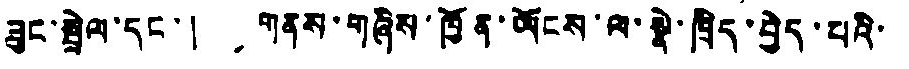ཟུང་སྤྲེལ་དང་། གནས་གཞིས་ཁྱོན་ཡོངས་ལ་སྣེ་ཁྲིད་བྱེད་པའི་
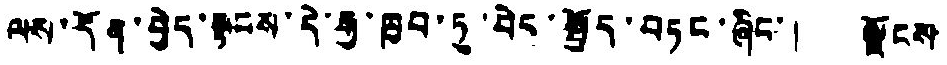ལས་དོན་བྱེད་སྟབས་དེ་རྒྱ་ཁྱབ་ཏུ་བེད་སྤྱོད་བཏང་ཞིང་། ལྗོངས
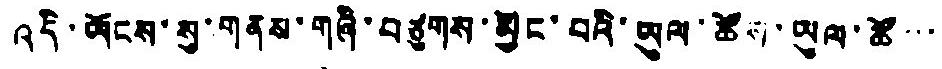འདི་ཡོངས་སུ་གནས་གཞི་བཙུགས་མྱོང་བའི་ཡུལ་ཚོས་ཡུལ་ཚོ་་་
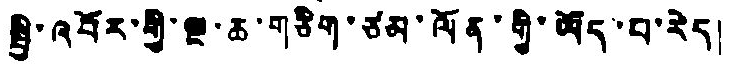སྤྱི་འབོར་གྱི་སྔ་ཆ་གཅིག་ཙམ་ལོན་གྱི་ཡོད་པ་རེད།
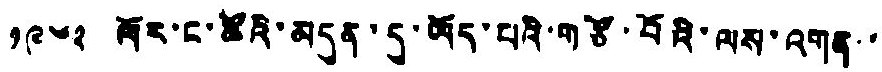༡༩༦༢ ཁོར་ང་ཚོའི་མདུན་དུ་ཡོད་པའི་གཙོ་བོའི་ལས་འགན་་
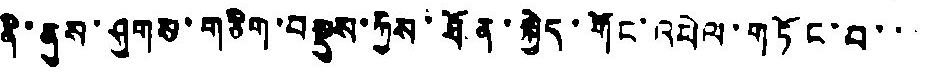ནི་ནུས་ཤུགས་གཅིག་བསྡུས་ཀྱིས་ཐོན་སྐྱེད་གོང་འཕེལ་གཏོང་བ་་་
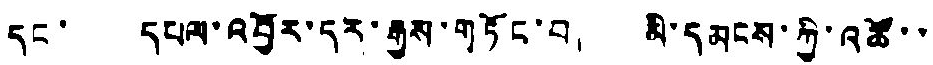དང་ དཔལ་འབྱོར་དར་རྒྱས་གཏོང་བ། མི་དམངས་ཀྱི་འཚོ་་
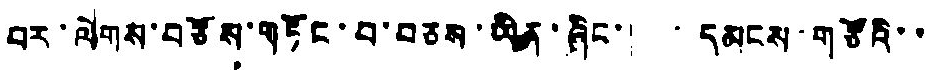བར་ལེགས་བཅོས་གཏོང་བ་བཅས་ཡིན་ཞིང་། དམངས་གཙོའི་་
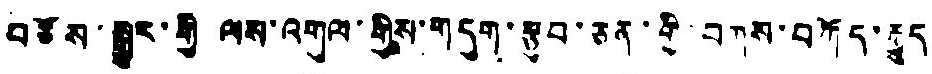བཅོས་སྒྱུར་གྱི ལས་འགུལ་གྱིས་གདུག་རྩུབ་ཅན་གྱི་བཀས་བཀོད་རྒྱུད
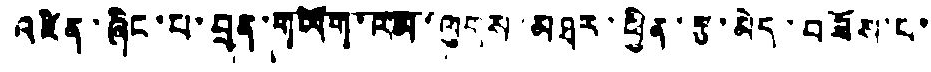འཛིན་ཞིང་པ་བྲན་གཡོག་ལམ་ལུགས་མཐར་ཕྱིན་རྩ་མེད་བཟོས་པ་
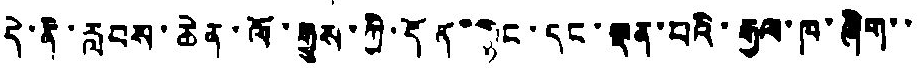དེ་ནི་རླབས་ཆེན་ལོ་རྒྱུས་ཀྱི་དོན་སྙིང་དང་སྡན་པའི་རྒྱལ་ཁ་ཞིག་་
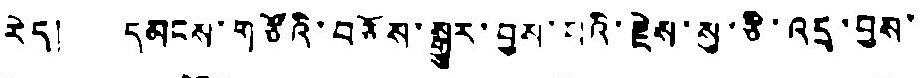རེད། དམངས་གཙོའི་བཅོས་སྒྱུར་བྱས་པའི་རྗེས་སུ་ཅི་འདྲ་བྱས་
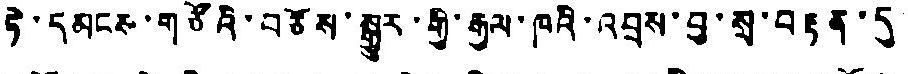ཏེ་དམངས་གཙོའི་བཅོས་སྒྱུར་གྱི་རྒྱལ་ཁའི་འབྲས་བུ་སྲ་བརྟན་དུ
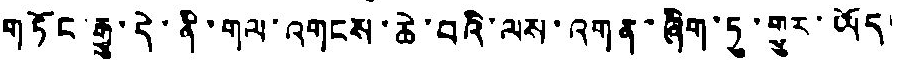གཏོང་རྒྱུ་དེ་ནི་གལ་འགངས་ཆེ་བའི་ལས་འགན་ཞིག་ཏུ་གྱུར་ཡོད།
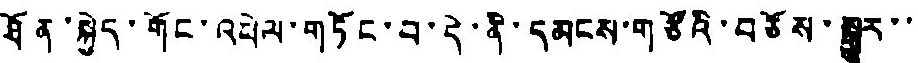ཐོན་སྐྱེད་གོང་འཕེལ་གཏོང་བ་དེ་ནི་དམངས་གཙོའི་བཅོས་སྒྱུར་་
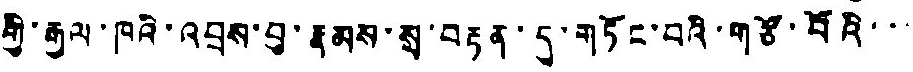གྱི་རྒྱལ་ཁའི་འབྲས་བུ་རྣམས་སྲ་བརྟན་དུ་གཏོང་བའི་གཙོ་བོའི་་་
